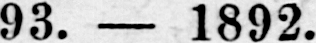No 93. — 1892.
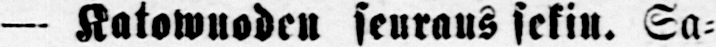— Katowuoden seuraus sekin. Sa-
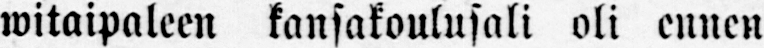witaipaleen kansakoulusali oli ennen
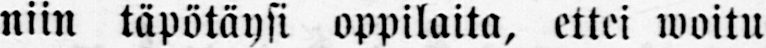niin täpötäysi oppilaita, ettei woitu
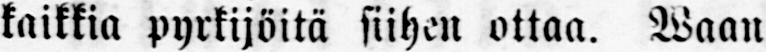kaikkia pyrkijöitä siihen ottaa. Waan
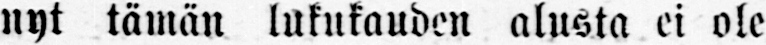nyt tämän lukukauden alusta ei ole
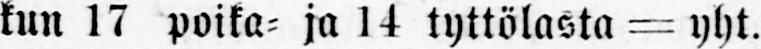kun 17 poika- ja 14 tyttölasta — yht.
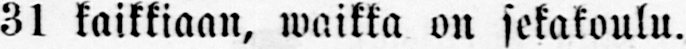31 kaikkiaan, waikka on sekakoulu.
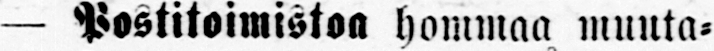— Postitoimistoa hommaa muuta-
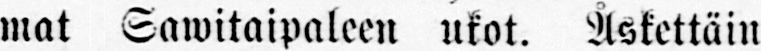mat Sawitaipaleen ukot. Åskettäin
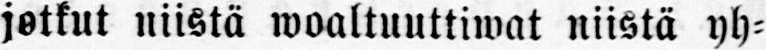jotkut niistä waaltuuttiwat niistä yh-
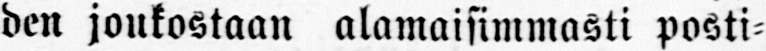den joukostaan alamaisimmasti posti-
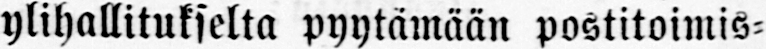ylihallitukselta pyytämään postitoimis-
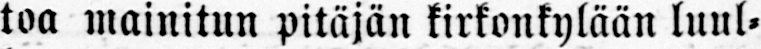toa mainitun pitäjän kirkonkylään luul-
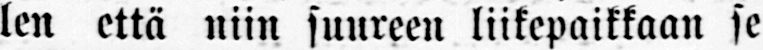len että niin suureen liikepaikkaan se
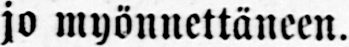jo myönnettäneen.
